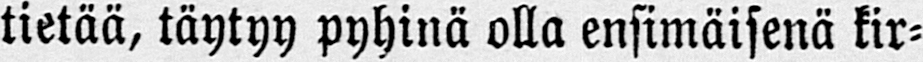tietää, täytyy pyhinä olla ensimäisenä kir-
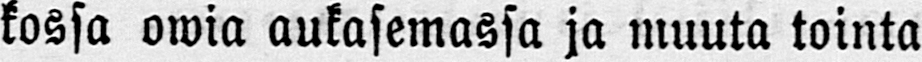kossa owia aukasemassa ja muuta tointa
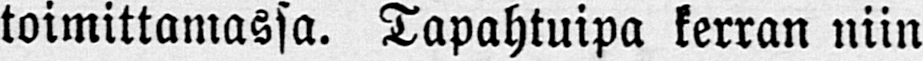toimittamassa. Tapahtuipa kerran niin
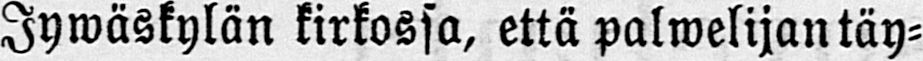Jywäskylän kirkossa, että palwelijan täy-
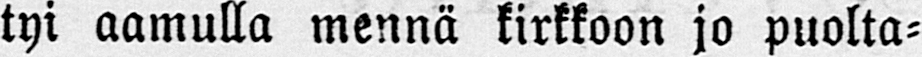tyi aamulla mennä kirkkoon jo puolta-
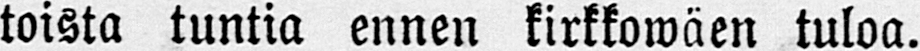toista tuntia ennen kirkkowäen tuloa.
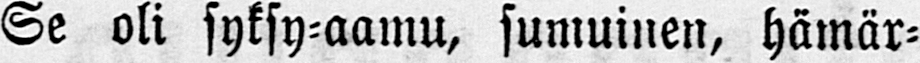Se oli syksy-aamu, sumuinen, hämär-
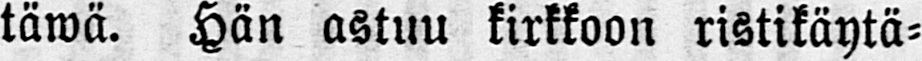täwä. Hän astuu kirkkoon ristikäytä-
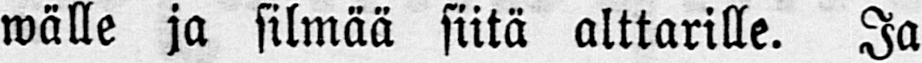wälle ja silmää siitä alttarille. Ja
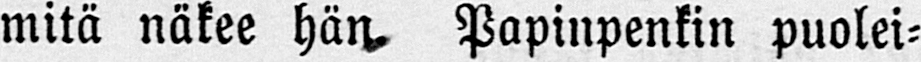mitä näkee Papinpenkin puolei-
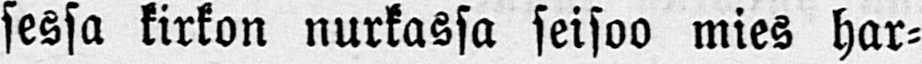sessa kirkon nurkassa seisoo mies har-
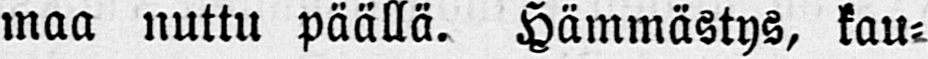maa nuttu päällä. Hämmästys, kau-
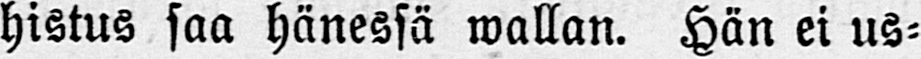histus saa hänessä wallan. Hän ei us-
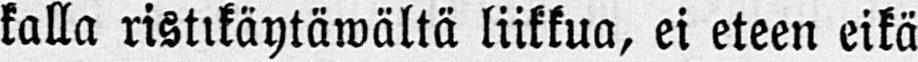kalla ristikäytäwältä liikkua, ei eteen eikä
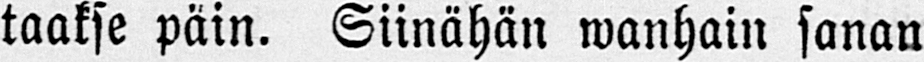taakse päin. Siinähän wanhain sanan
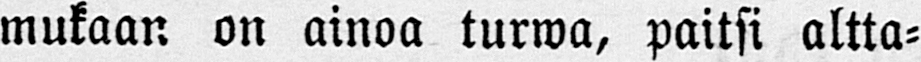mukaan on ainoa turwa, paitsi altta-
